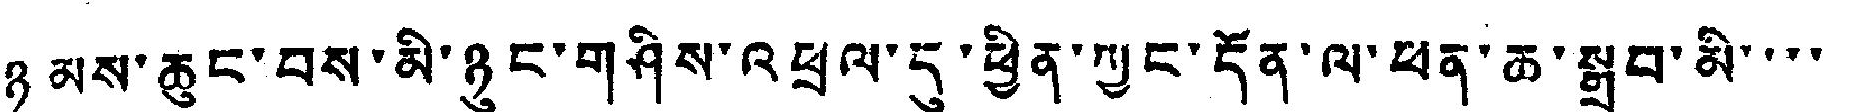ཉམས་ཆུང་བས་མི་ཉུང་གཤིས་འཕྲལ་དུ་ཕྱིན་ཀྱང་དོན་ལ་ཕན་ཆ་སྒྲུབ་མི་་་་
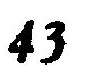43
